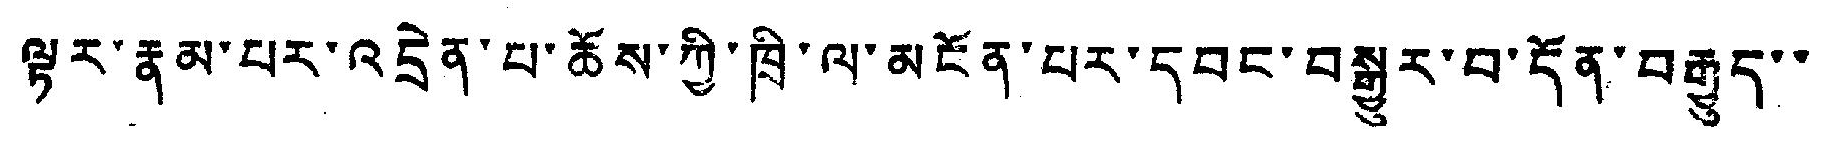ལྟར་རྣམ་པར་འདྲེན་པ་ཆོས་ཀྱི་ཁྲི་ལ་མངོན་པར་དབང་བསྒྱུར་བ་དོན་བརྒྱུད་་
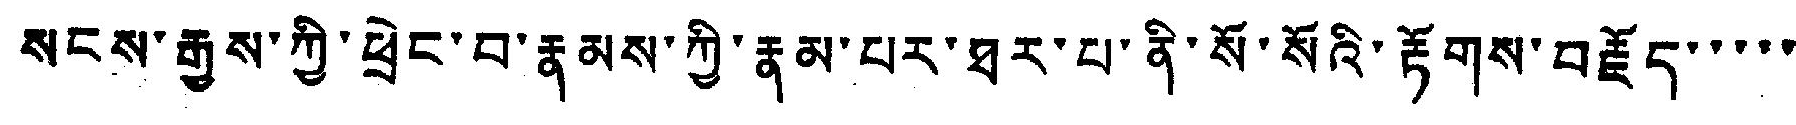སངས་རྒྱས་ཀྱི་ཕྲེང་བ་རྣམས་ཀྱི་རྣམ་པར་ཐར་པ་ནི་སོ་སོའི་རྟོགས་བརྗོད་་་་་
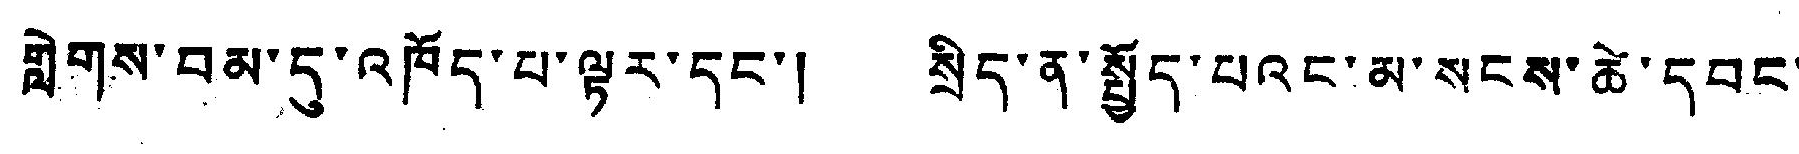གླེགས་བམ་དུ་འཁོད་པ་ལྟར་དང་། སྲིད་ན་སྤྱོད་པའང་མ་སངས་ཚེ་དབང་
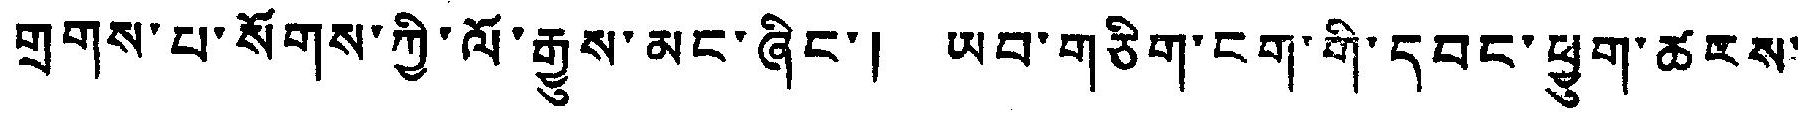གྲགས་པ་སོགས་ཀྱི་ལོ་རྒྱུས་མང་ཞིང་། ཡབ་གཅིག་ངག་གི་དབང་ཕྱུག་ཚངས་
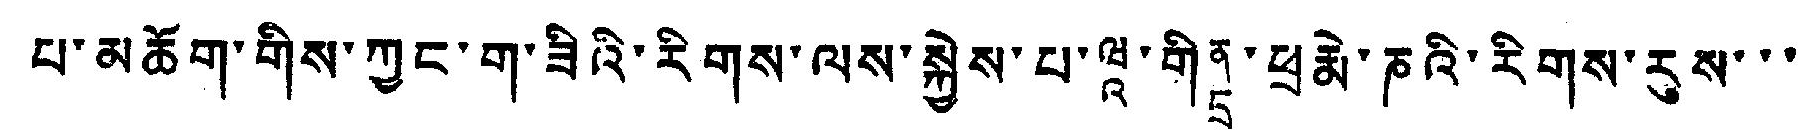པ་མཆོག་གིས་ཀྱང་ག་ཟིའི་རིགས་ལས་སྐྱེས་པ་ཝཱ་གིནྡྲ་ཕྲརྨེ་ཎའི་རིགས་རུས་་་
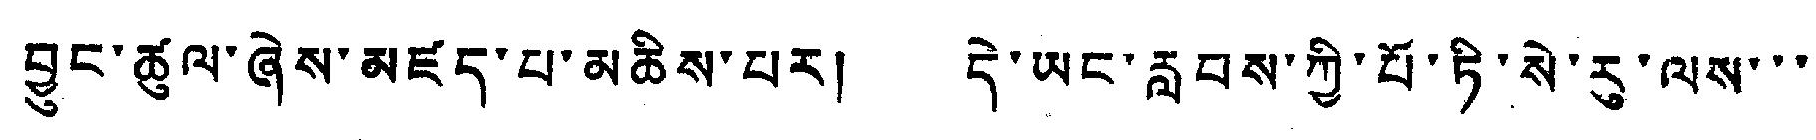བྱུང་ཚུལ་ཞེས་མཛད་པ་མཆིས་པར། དེ་ཡང་རླབས་ཀྱི་པོ་ཏི་སེ་རུ་ལས་་་
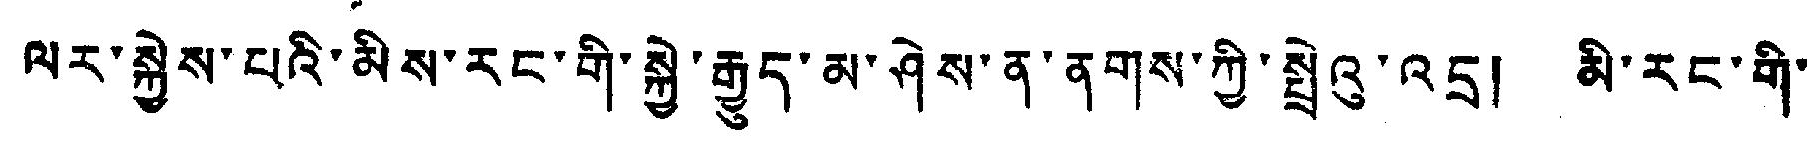ལར་སྐྱེས་པའི་མིས་རང་གི་སྐྱེ་རྒྱུད་མ་ཤེས་ན་ནགས་ཀྱི་སྤྲེའུ་འདྲ། མི་རང་གི་
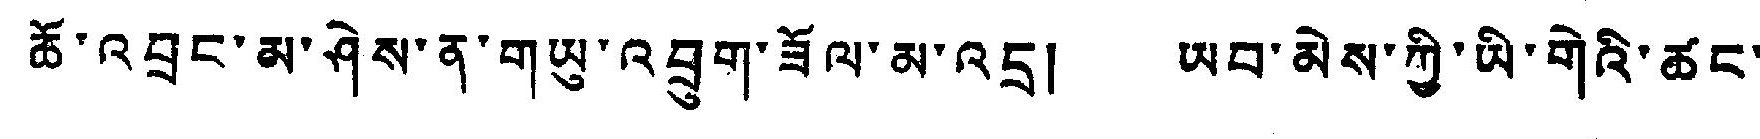ཆོ་འབྲང་མ་ཤེས་ན་གཡུ་འབྲུག་ཟོལ་མ་འདྲ། ཡབ་མེས་ཀྱི་ཡི་གེའི་ཚང་་་
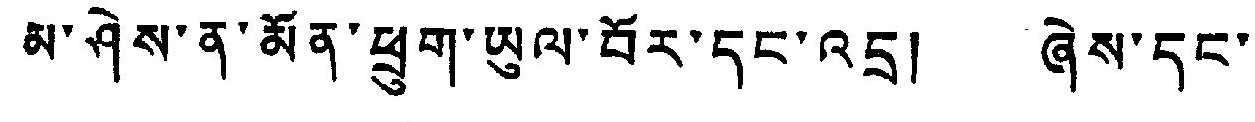མ་ཤེས་ན་མོན་ཕྲུག་ཡུལ་བོར་དང་འདྲ། ཞེས་དང་།
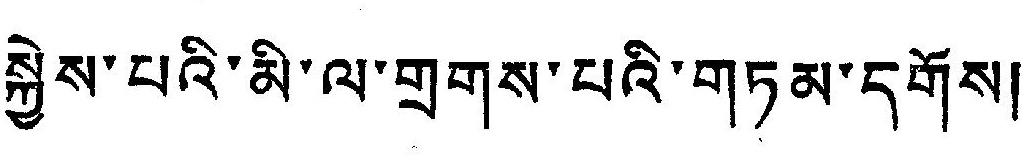སྐྱེས་པའི་མི་ལ་གྲགས་པའི་གཏམ་དགོས།
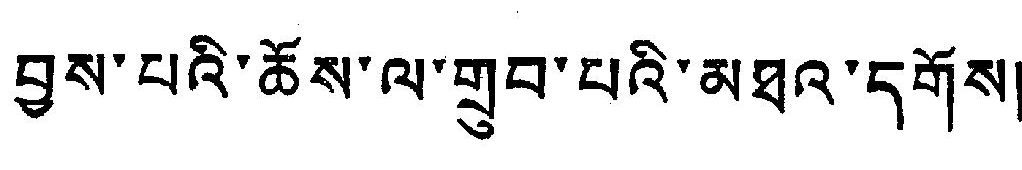བྱས་པའི་ཆོས་ལ་གྲུབ་པའི་མཐའ་དགོས།
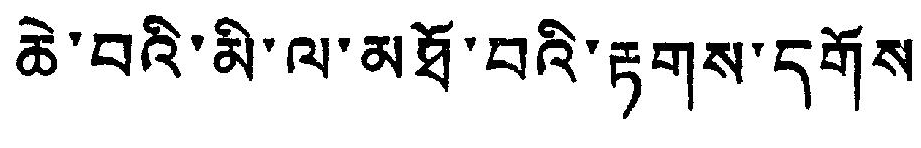ཆེ་བའི་མི་ལ་མཐོ་བའི་རྟགས་དགོས།
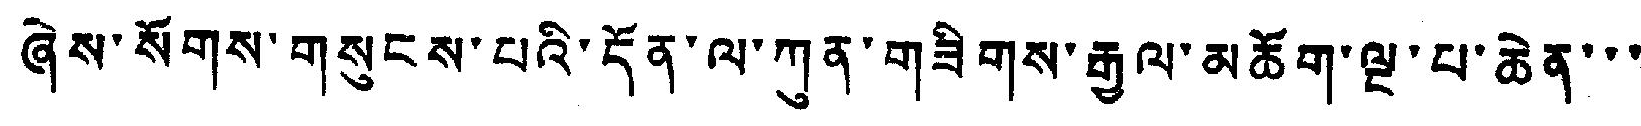ཞེས་སོགས་གསུངས་པའི་དོན་ལ་ཀུན་གཟིགས་རྒྱལ་མཆོག་ལྔ་པ་ཆེན་་་
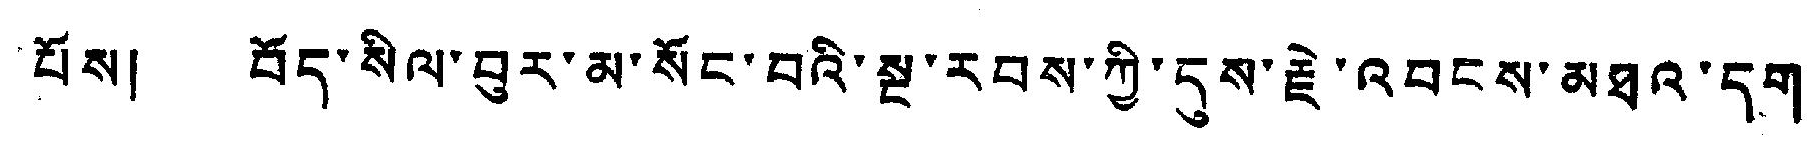པོས། བོད་སིལ་བུར་མ་སོང་བའི་སྔ་རབས་ཀྱི་དུས་རྗེ་འབངས་མཐའ་དག་
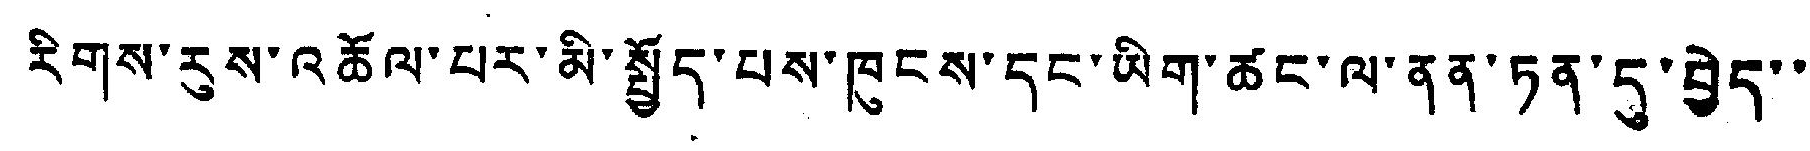རིགས་རུས་འཆོལ་པར་མི་སྤྱོད་པས་ཁུངས་དང་ཡིག་ཚང་ལ་ནན་ཏན་དུ་བྱེད་་
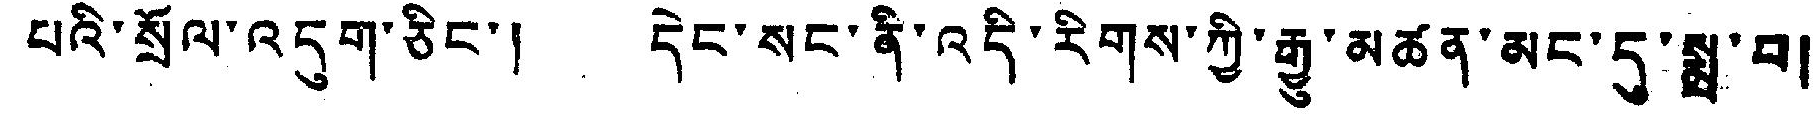པའི་སྲོལ་འདུག་ཅིང་། དེང་སང་ནི་འདི་རིགས་ཀྱི་རྒྱུ་མཚན་མང་དུ་སྨྲ་བ།
